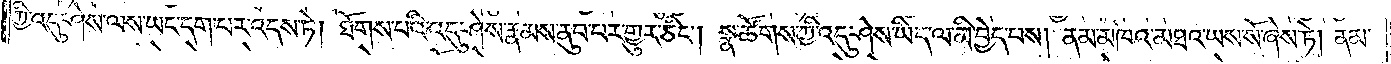ཀྱི་འདུ་ཤེས་ལས་ཡང་དག་པར་འདས་ཏེ། ཐོགས་པའི་འདུ་ཤེས་རྣམས་ནུབ་པར་གྱུར་ཅིང༌། སྣ་ཚོགས་ཀྱི་འདུ་ཤེས་ཡིད་ལ་མི་བྱེད་པས། ནམ་མཁའ་མཐའ་ཡས་སོ་ཞེས་ཏེ། ནམ་
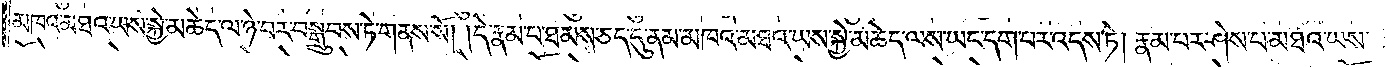མཁའ་མཐའ་ཡས་སྐྱེ་མཆེད་ལ་ཉེ་བར་བསྒྲུབས་ཏེ་གནས་སོ། །དེ་རྣམ་པ་ཐམས་ཅད་དུ་ནམ་མཁའ་མཐའ་ཡས་སྐྱེ་མཆེད་ལས་ཡང་དག་པར་འདས་ཏེ། རྣམ་པར་ཤེས་པ་མཐའ་ཡས་
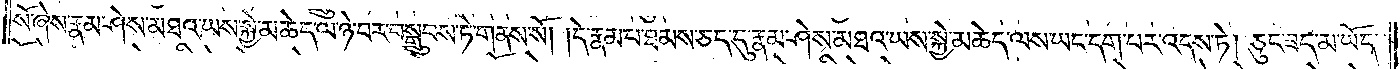སོ་ཞེས་རྣམ་ཤེས་མཐའ་ཡས་སྐྱེ་མཆེད་ལ་ཉེ་བར་བསྒྲུབས་ཏེ་གནས་སོ། །དེ་རྣམ་པ་ཐམས་ཅད་དུ་རྣམ་ཤེས་མཐའ་ཡས་སྐྱེ་མཆེད་ལས་ཡང་དག་པར་འདས་ཏེ། ཅུང་ཟད་མ་ཡོད་
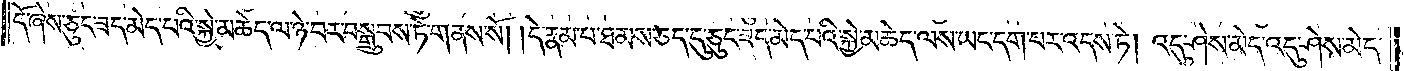དོ་ཞེས་ཅུང་ཟད་མེད་པའི་སྐྱེ་མཆེད་ལ་ཉེ་བར་བསྒྲུབས་ཏེ་གནས་སོ། །དེ་རྣམ་པ་ཐམས་ཅད་དུ་ཅུང་ཟད་མེད་པའི་སྐྱེ་མཆེད་ལས་ཡང་དག་པར་འདས་ཏེ། འདུ་ཤེས་མེད་འདུ་ཤེས་མེད་
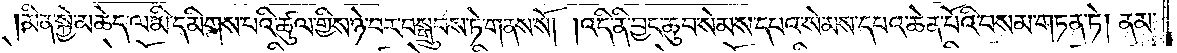མིན་སྐྱེ་མཆེད་ལ་མི་དམིགས་པའི་ཚུལ་གྱིས་ཉེ་བར་བསྒྲུབས་ཏེ་གནས་སོ། །འདི་ནི་བྱང་ཆུབ་སེམས་དཔའ་སེམས་དཔའ་ཆེན་པོའི་བསམ་གཏན་ཏེ། ནམ་
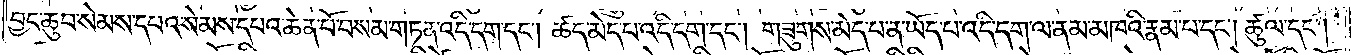བྱང་ཆུབ་སེམས་དཔའ་སེམས་དཔའ་ཆེན་པོ་བསམ་གཏན་འདི་དག་དང༌། ཚད་མེད་པ་འདི་དག་དང༌། གཟུགས་མེད་པ་ན་ཡོད་པ་འདི་དག་ལ་ནམ་མཁའི་རྣམ་པ་དང༌། ཚུལ་དང༌།
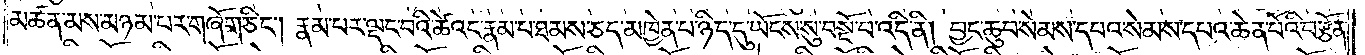མཚན་མས་མཉམ་པར་གཞོག་ཅིང༌། རྣམ་པར་ལྡང་བའི་ཚེའང་རྣམ་པ་ཐམས་ཅད་མཁྱེན་པ་ཉིད་དུ་ཡོངས་སུ་བསྔོ་བ་འདི་ནི། བྱང་ཆུབ་སེམས་དཔའ་སེམས་དཔའ་ཆེན་པོའི་བརྩོན་
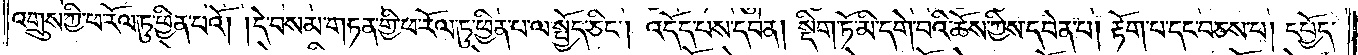འགྲུས་ཀྱི་ཕ་རོལ་ཏུ་ཕྱིན་པའོ། །དེ་བསམ་གཏན་གྱི་ཕ་རོལ་ཏུ་ཕྱིན་པ་ལ་སྤྱོད་ཅིང༌། འདོད་པས་དབེན། སྡིག་ཏོ་མི་དགེ་བའི་ཆོས་ཀྱིས་དབེན་པ། རྟོག་པ་དང་བཅས་པ། དཔྱོད་
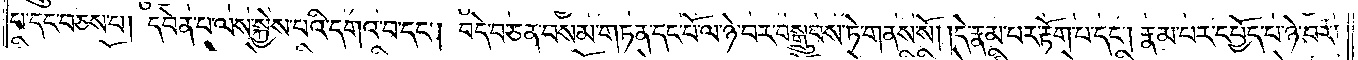པ་དང་བཅས་པ། དབེན་པ་ལས་སྐྱེས་པའི་དགའ་བ་དང༌། བདེ་བ་ཅན་བསམ་གཏན་དང་པོ་ལ་ཉེ་བར་བསྒྲུབས་ཏེ་གནས་སོ། །དེ་རྣམ་པར་རྟོག་པ་དང༌། རྣམ་པར་དཔྱོད་པ་ཉེ་བར་
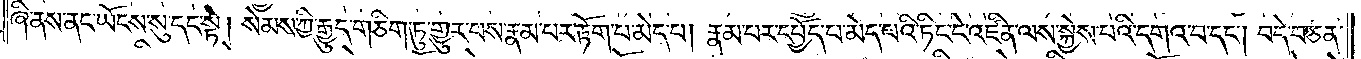ཞི་ནས་ནང་ཡོངས་སུ་དང་སྟེ། སེམས་ཀྱི་རྒྱུད་གཅིག་ཏུ་གྱུར་པས་རྣམ་པར་རྟོག་པ་མེད་པ། རྣམ་པར་དཔྱོད་པ་མེད་པའི་ཏིང་ངེ་འཛིན་ལས་སྐྱེས་པའི་དགའ་བ་དང༌། བདེ་བ་ཅན་
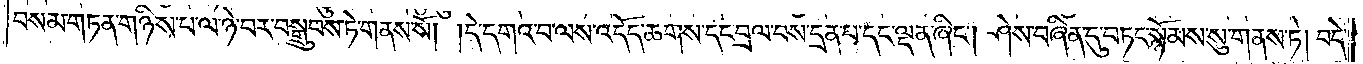བསམ་གཏན་གཉིས་པ་ལ་ཉེ་བར་བསྒྲུབས་ཏེ་གནས་སོ། །དེ་དགའ་བ་ལས་འདོད་ཆགས་དང་བྲལ་བས་དྲན་པ་དང་ལྡན་ཞིང༌། ཤེས་བཞིན་དུ་བཏང་སྙོམས་སུ་གནས་ཏེ། བདེ་
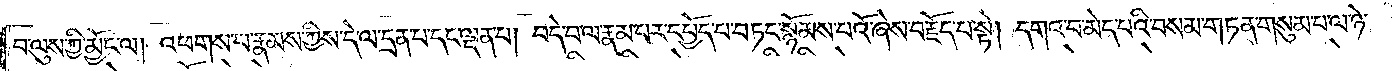བ་ལུས་ཀྱི་མྱོང་ལ། འཕགས་པ་རྣམས་ཀྱིས་དེ་ལ་དྲན་པ་དང་ལྡན་པ། བདེ་བ་ལ་རྣམ་པར་དཔྱོད་པ་བཏང་སྙོམས་པའོ་ཞེས་བརྗོད་པ་སྟེ། དགའ་བ་མེད་པའི་བསམ་གཏན་གསུམ་པ་ལ་ཉེ་
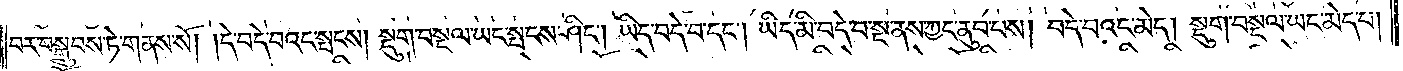བར་བསྒྲུབས་ཏེ་གནས་སོ། །དེ་བདེ་བའང་སྤངས། སྡུག་བསྔལ་ཡང་སྤངས་ཤིང༌། ཡིད་བདེ་བ་དང༌། ཡིད་མི་བདེ་བ་སྔ་ནས་ཀྱང་ནུབ་པས། བདེ་བའང་མེད། སྡུག་བསྔལ་ཡང་མེད་པ།
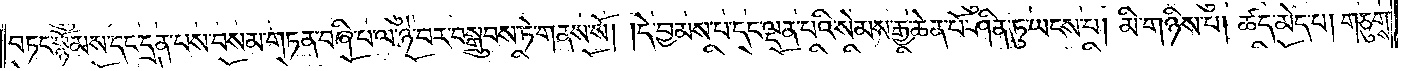བཏང་སྙོམས་དང་དྲན་པས་བསམ་གཏན་བཞི་པ་ལ་ཉེ་བར་བསྒྲུབས་ཏེ་གནས་སོ། དེ་བྱམས་པ་དང་ལྡན་པའི་སེམས་རྒྱ་ཆེན་པོ་ཤིན་ཏུ་ཡངས་པ། མི་གཉིས་པ། ཚད་མེད་པ། གཅུགས་
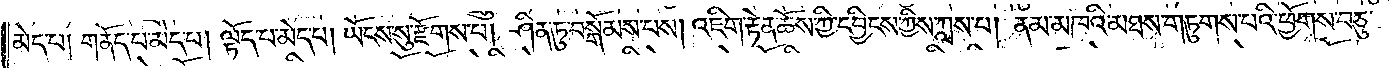མེད་པ། གནོད་པ་མེད་པ། ལྟོད་པ་མེད་པ། ཡོངས་སུ་རྫོགས་པ། ཤིན་ཏུ་བསྒོམས་པས། འཇིག་རྟེན་ཆོས་ཀྱི་དབྱིངས་ཀྱིས་ཀླས་པ། ནམ་མཁའི་མཐས་གཏུགས་པའི་ཕྱོགས་བཅུ་
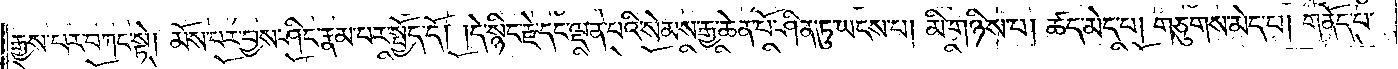རྒྱས་པར་བཀང་སྟེ། མོས་པར་བྱས་ཤིང་རྣམ་པར་སྤྱོད་དོ། །དེ་སྙིང་རྗེ་དང་ལྡན་པའི་སེམས་རྒྱ་ཆེན་པོ་ཤིན་ཏུ་ཡངས་པ། མི་གཉིས་པ། ཚད་མེད་པ། གཅུགས་མེད་པ། གནོད་པ་
